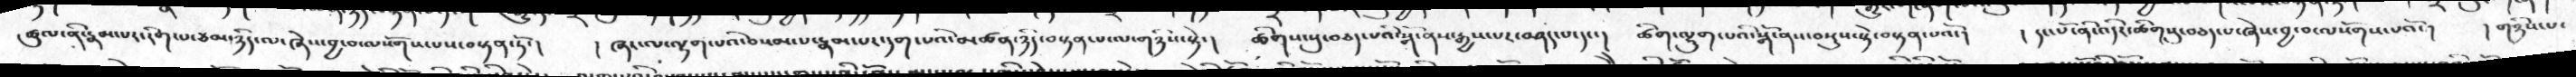ཚུལ་ནི་རྣམ་པར་རིག་པ་ཙམ་ཉིད་ལ་ཞེས་བྱ་བ་ལསོགས་པས་བསྟན་ཏོ་།  །ཞར་ལ་ལྷག་པའི་བསམ་པ་རྣམ་པར་དག་པའི་མཚན་ཉིད་བསྟན་པ་ལ་གཉིས་སྟེ་།  ཚིགས་སུ་བཅད་པའི་སྒོ་ནས་རྒྱས་པར་བཤད་པ་དང་།  ཚིག་ལྷུག་པའི་སྒོ་ནས་བསྡུས་སྟེ་བསྟན་པའོ་།   །དང་པོ་ནི་འདིར་ཚིགསུ་གཅད་པ་ཞེས་བྱ་བ་ལསོགས་པའོ་།  །གཉིས་པ་
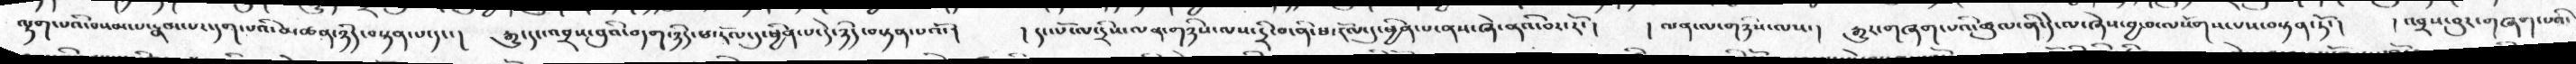ལྷག་པའི་བསམ་པ་རྣམ་པར་དག་པའི་མཚན་ཉིད་བསྟན་པ་དང་།  རྒྱུ་དང་འབྲས་བུའི་བདག་ཉིད་ཕ་རོལ་དུ་ཕྱིན་པ་དེ་ཉིད་བསྟན་པའོ་།  ། དང་པོ་ལ་དྲིས་ལན་གཉིས་ལས་དྲི་བ་ནི་ཕ་རོལ་དུ་ཕྱིན་པ་ནས་ཞེས་ནའི་བར་རོ་།   ། ལན་ལ་གཉིས་ལས་།  རྒྱུར་གཞག་པའི་ཚུལ་ནི་དེ་ལ་ཞེས་བྱ་བ་ལསོགས་པས་བསྟན་ཏོ་།  ། འབྲས་བུར་གཞག་པའི་
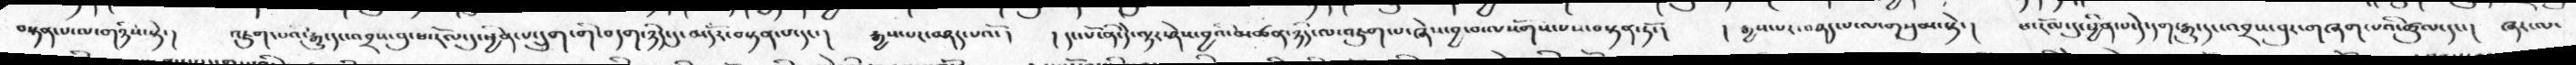བསྟན་པ་ལ་གཉིས་སྟེ་།  འཇུག་པའི་རྒྱུ་དང་འབྲས་བུ་ཕ་རོལ་དུ་ཕྱིན་པ་དྲུག་གི་བདག་ཉིད་དུ་མདོར་བསྟན་པ་དང་།  རྒྱས་པར་བཤད་པའོ་།   །དང་པོ་ནི་དེ་ལྟར་ཤེས་བྱའི་མཚན་ཉིད་ལ་འཇུག་པ་ཞེས་བྱ་བ་ལསོགས་པས་བསྟན་ཏོ་།  །རྒྱས་པར་བཤད་པ་ལ་གསུམ་སྟེ་།  ཕ་རོལ་དུ་ཕྱིན་པ་དེ་དག་རྒྱུ་དང་འབྲས་བུར་གཞག་པའི་ཚུལ་དང་།   ཞར་ལ་
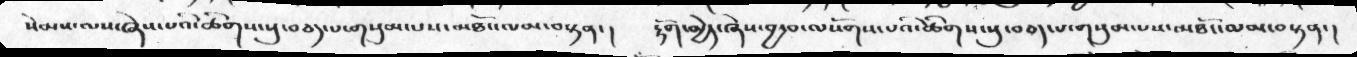སེམས་ལས་ཞེས་པའི་ཚིགས་སུ་བཅད་པ་གསུམ་པས་མཐོང་ལམ་བསྟན་།   རྟོག་མྱེད་ཞེས་བྱ་བ་ལསོགས་པའི་ཚིགས་སུ་བཅད་པ་གསུམ་པས་མཐོང་ལམ་བསྟན་།
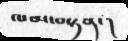ལམ་བསྟན་།
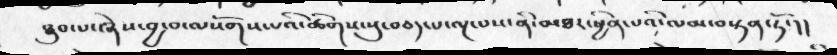ཐུབ་པ་ཞེས་བྱ་བ་ལསོགས་པའི་ཚིགས་སུ་བཅད་པ་ལྔ་པས་ནི་མཐར་ཕྱིན་པའི་ལམ་བསྟན་ཏོ་།།
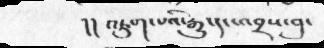།།       འཇུག་པའི་རྒྱུ་དང་འབྲས་བུ་
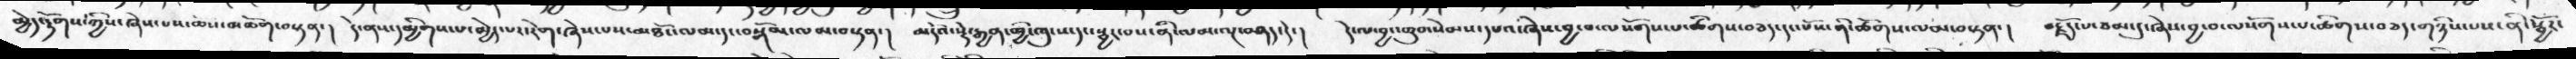མྱེད་རྟོགས་གྱིས་ཤེས་པས་ཆོས་མཆོག་བསྟན་།  དེ་ནས་དམྱིགས་པ་མྱེད་པར་རེག་ཞེས་པས་མཐོང་ལམ་དང་བསྒོམ་ལམ་བསྟན་།  མདོའ་སྡེ་རྒྱན་གྱི་ཁུངས་དང་སྦྱར་བས་ནི་ལམ་ལྔ་བཤད་དེ་།  དེ་ལ་བྱང་ཆུབ་སེམས་དཔའ་ཞེས་བྱ་བ་ལསོགས་པ་ཚིགས་བཅད་དང་པོས་ནི་ཚོགས་ལམ་བསྟན་།  བརྗོད་པ་ཙམ་དུ་ཞེས་བྱ་བ་ལསོགས་པ་ཚོགས་བཅད་གཉིས་པས་ནི་སྦྱོར་་
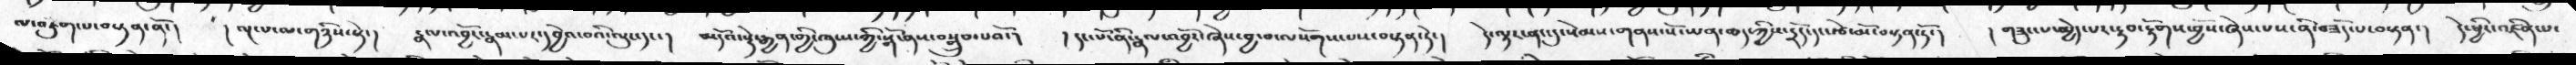ལ་འཇུག་པ་བསྟན་ནོ་།  ། ལྔ་པ་ལ་གཉིས་སྟེ་།   རྣལ་འབྱོར་རྣམ་པར་དབྱེའ་བའི་ལུས་དང་།   མདོའ་སྡེ་རྒྱན་གྱི་ཁུངས་ཀྱི་སྒོ་ནས་བསྒྲུབ་པའོ་།   །དང་པོ་ནི་རྣམ་འབྱོར་ཞེས་བྱ་བ་ལསོགས་པས་བསྟན་ཏེ་།   དེ་ལྟར་ནང་དུ་སེམས་གནས་སོ་ཡན་ཆད་ཀྱིས་དྲོད་དདང་རྩེ་མོ་བསྟན་ཏོ་།   །གཟུང་པ་མྱེད་པར་རྟབ་རྟོགས་བྱོས་ཞེས་པས་ནི་བཟོད་པ་བསྟན་།   དེ་ཕྱིར་འཛིན་པ་
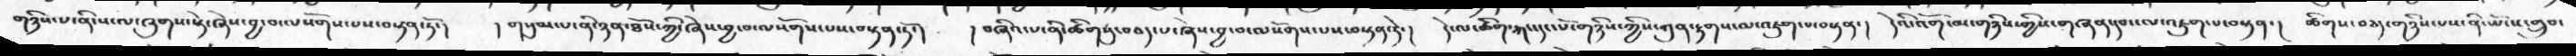གཉིས་པ་ནི་ས་ལ་ཞུགས་སྟེ་ཞེས་བྱ་བ་ལསོགས་པས་བསྟན་ཏོ་།  ། གསུམ་པ་ནི་ཉན་ཐོས་ཀྱི་ཞེས་བྱ་བ་ལསོགས་པས་བསྟན་ཏོ་།  ། བཞིའ་པ་ནི་ཚིགསུ་བཅད་པ་ཞེས་བྱ་བ་ལསོགས་པས་བསྟན་ཏེ་།  དེ་ལ་ཚིག་རྐང་དང་པོ་གཉིས་ཀྱིས་ཀུན་རྟགས་ལ་འཇུག་པ་བསྟན་།  དེའི་འོག་མ་གཉིས་གྱིས་གཞན་དབང་ལ་འཇུག་པ་བསྟན་།  ཚིགས་བཅད་གཉིས་པས་ནི་ཡོངས་གྲུབ་
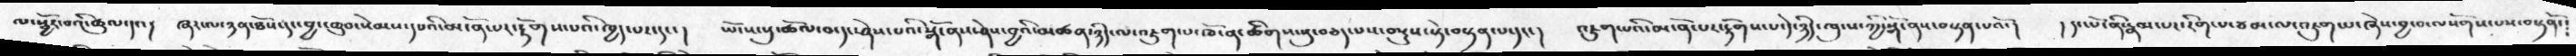ལ་སྦྱོར་བའི་ཚུལ་དང་།  ཞར་ལ་ཉན་ཐོས་དང་བྱང་ཆུབ་སེམས་དཔའི་མངོན་པར་རྟོགས་པའི་ཁྱད་པར་དང་།  ཡོངས་སུ་ཚོལ་བ་དང་ཤེས་པའི་སྒོ་ནས་ཤེས་བྱའི་མཚན་ཉིད་ལ་འཇུག་པ་ཁོ་ན་ཚིགས་སུ་བཅད་པས་བསྡུས་སྟེ་བསྟན་པ་དང་།  འཇུག་པའི་མངོན་པར་རྟོགས་པ་དེ་ཉིད་ཁུངས་ཀྱི་སྒོ་ནས་བསྟན་པའོ་།  །དང་པོ་ནི་རྣམ་པར་རིག་པ་ཙམ་ལ་འཇུག་པ་ཞེས་བྱ་བ་ལསོགས་པས་བསྟནོ་།
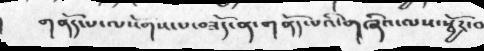གནོད་པ་ལསོགས་པ་བཟོད་ན་གནོད་པའི་གཞིའ་ལས་སྦྱོར་བ
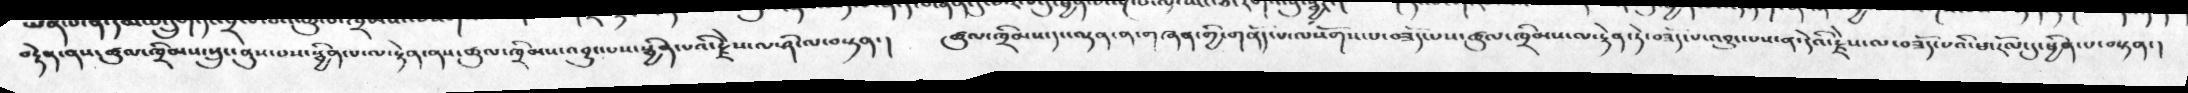བརྟེན་ནས་ཚུལ་ཁྲིམས་སྲུང་ནུས་པས་སྦྱིན་པ་ལ་རྟེན་ནས་ཚུལ་ཁྲིམས་འབྱུང་པས་སྦྱིན་པའི་རྗེས་ལ་ཤི་ལ་བསྟན་།   ཚུལ་ཁྲིམས་དང་ལྡན་ན་གཞན་གྱི་གནོད་པ་ལསོགས་པ་བཟོད་པས་ཚུལ་ཁྲིམས་ལ་རྟེན་ཏེ་བཟོད་པ་འབྱུང་པས་ན་དེའི་རྗེས་ལ་བཟོད་པའི་ཕ་རོལ་དུ་ཕྱིན་པ་བསྟན་།
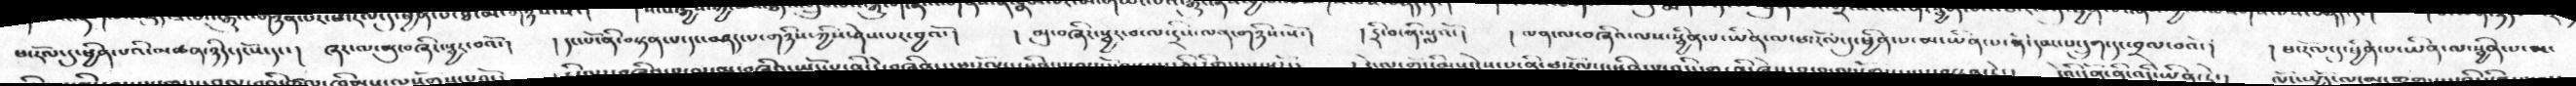ཕ་རོལ་དུ་ཕྱིན་པའི་མཚན་ཉིད་དངོས་དང་།  ཞར་ལ་མུ་བཞི་སྦྱར་བའོ་།   །དང་པོ་ནི་བསྟན་པ་དང་བཤད་པ་གཉིས་ཀྱིས་ཤེས་པར་བྱའོ་།  །མུ་བཞིར་སྦྱར་བ་ལ་དྲིས་ལན་གཉིས་སོ་།  །དྲི་བ་ནི་སླའོ་།  །ཡན་ལག་བཞིའ་ལས་སྦྱིན་པ་ཡིན་ལ་ཕ་རོལ་དུ་ཕྱིན་པ་མ་ཡིན་པ་ནི་དམ་པ་དྲུག་དང་བྲལ་བའོ་།  ། ཕ་རོལ་དུ་ཕྱིན་པ་ཡིན་པ་སྦྱིན་པ་ཡང་
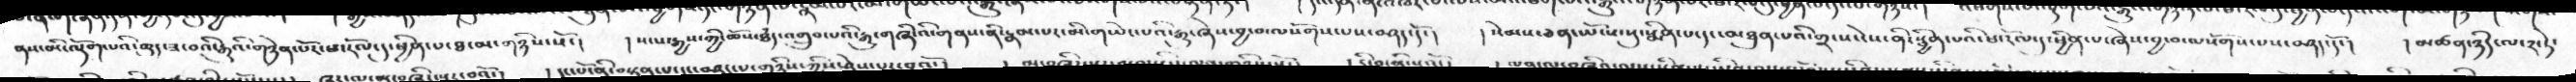ནས་མི་ལྡོག་པའི་ཆུད་ཟ་བའི་རྒྱུའི་གཉེན་པོར་ཕ་རོལ་དུ་ཕྱིན་པ་ཐ་མ་གཉིས་སོ་།   །སངས་རྒྱས་ཀྱི་ཆོས་ཐཾད་འགྲུབ་པའི་རྒྱུ་གཞིའི་གནས་ནི་རྣམ་པར་མི་གཡེང་པའི་རྒྱུ་ཞེས་བྱ་བ་ལསོགས་པས་བཤད་དོ་།   །སེམས་ཅན་ཡོངས་སུ་སྨིན་པ་དང་མཐུན་པའི་གྲངས་ངེས་ནི་སྦྱིན་པའི་ཕ་རོལ་དུ་ཕྱིན་པ་ཞེས་བྱ་བ་ལསོགས་པས་བཤད་དོ་།   །མཚན་ཉིད་ལ་༢་ཏེ་
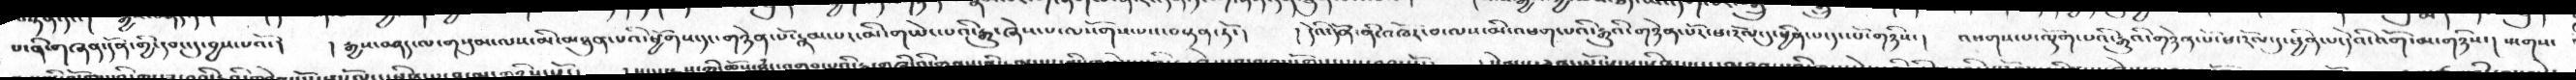པ་ནི་གཞན་དོན་གྱི་དབང་དུ་བྱས་པའོ་།   །རྒྱས་བཤད་ལ་གསུམ་ལས་མི་མཐུན་པའི་ཕྱོགས་དང་གཉེན་པོ་རྣམ་པར་མི་གཡེང་པའི་རྒྱུ་ཞེས་པ་ལསོགས་པས་བསྟན་ཏོ་།   །དེའི་དོན་ནི་འཁོར་བ་ལས་མི་འཕགས་པའི་རྒྱུའི་གཉེན་པོར་ཕ་རོལ་དུ་ཕྱིན་པ་དང་པོ་གཉིས་།   འཕགས་པ་ལྡོག་པའི་རྒྱུའི་གཉེན་པོ་ཕ་རོལ་དུ་ཕྱིན་པ་དེའི་འོག་མ་གཉིས་།  སྤགས་
